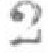2
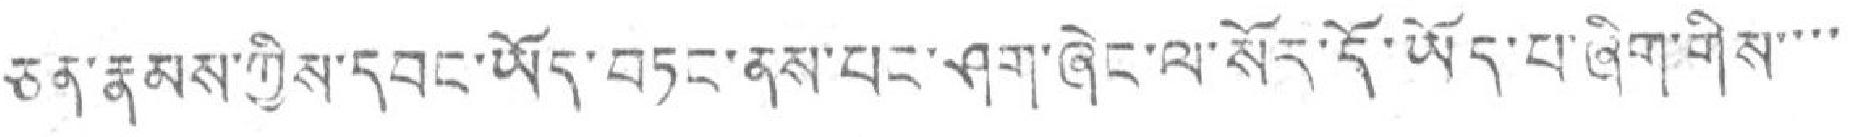ཅན་རྣམས་ཀྱིས་དབང་ཡོད་བཏང་ནས་པར་ཤག་ཞེང་ལ་སོར་དོ་ཡོད་པ་ཞིག་གིས་་་་
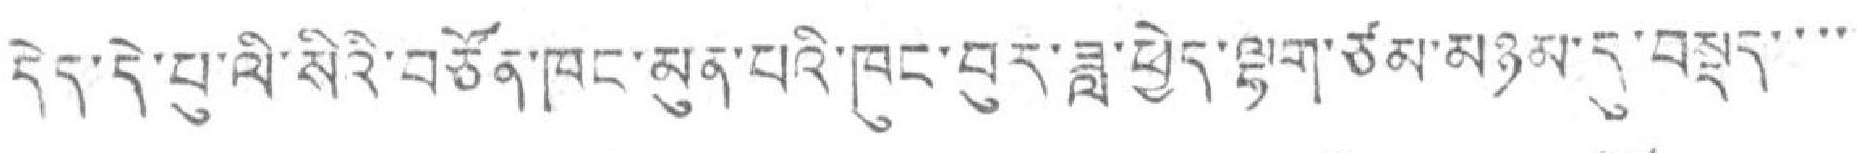དེད་དེ་པ་ལི་སིའི་བཙོན་ཁང་མུན་པའི་ཁུང་བུར་ཟླ་ཕྱེད་ལྷག་ཙམ་མཉམ་དུ་བསྡད་་་་
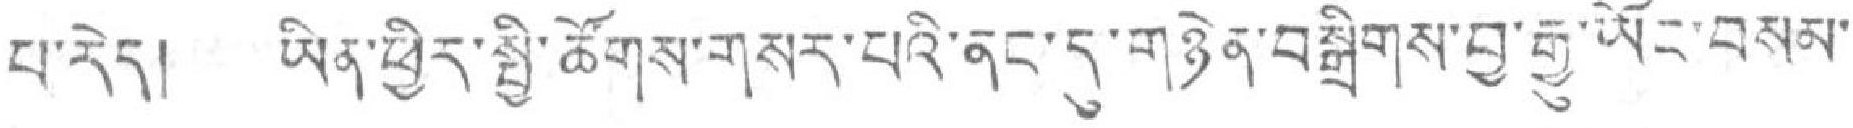པ་རེད། ཡིན་ཕྱིར་སྤྱི་ཚོགས་གསར་པའི་ནང་དུ་གཉེན་བསྒྲིགས་བྱ་རྒྱུ་ཡོང་བསམ་
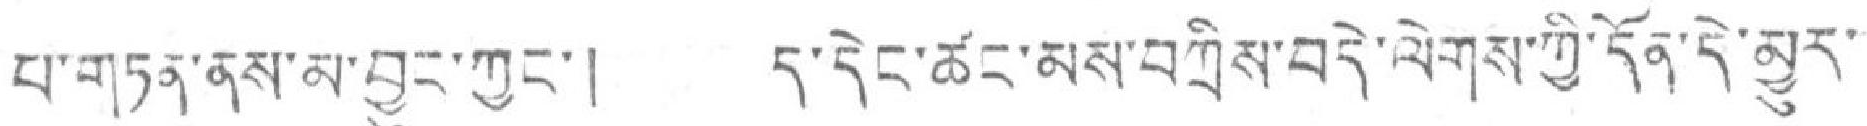པ་གཏན་ནས་མ་བྱུར་ཀྱང་། ད་དེང་ཚང་མས་བཀྲིས་བདེ་ལེགས་ཀྱི་དོན་དེ་མྱུར་
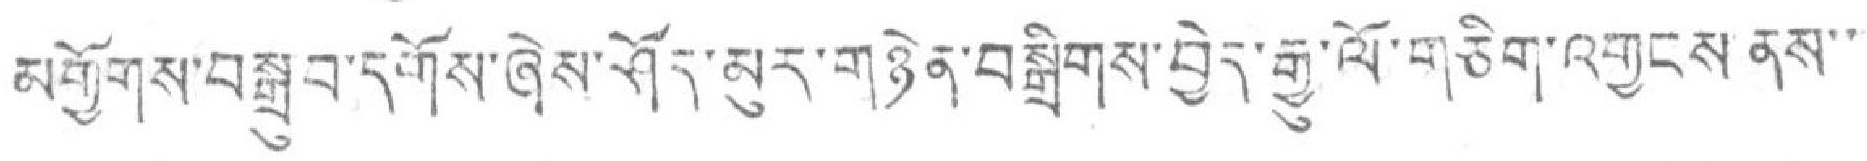མགྱོགས་བསྒྲུབ་དགོས་ཞེས་ཤོད་མུར་གཉེན་བསྒྲིགས་བྱེད་རྒྱུ་ལོ་གཅིག་འགྱངས་ནས་་
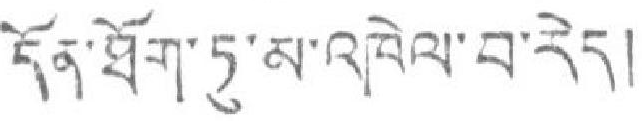དོན་ཐོག་ཏུ་མ་འཁེལ་བ་རེད།
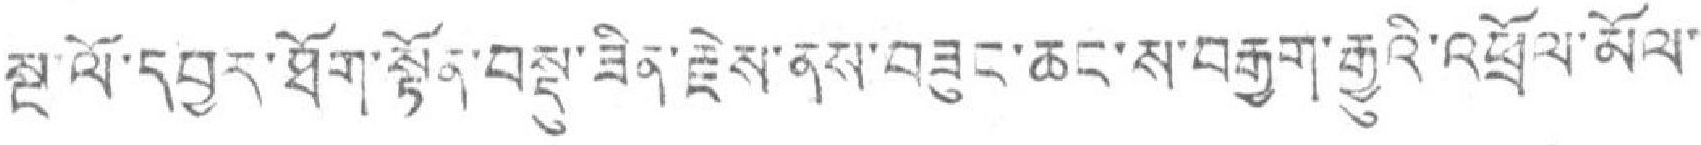སྔ་ལོ་དབྱར་ཐོག་སྟོན་བསྡུ་ཟིན་རྗེས་ནས་བཟུང་ཆང་ས་བརྒྱག་རྒྱུའི་འཕྲོལ་མོལ་
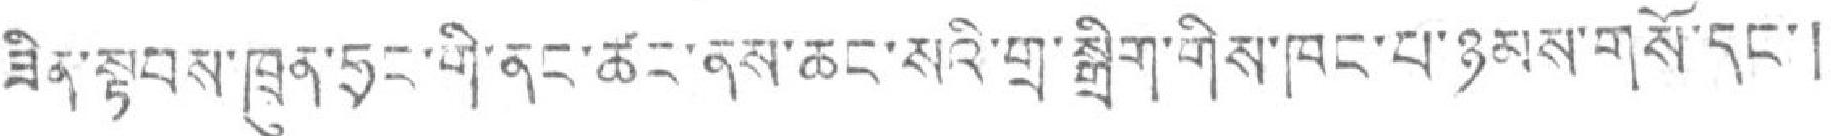ཟིན་སྟབས་ཁྲུན་ཧྲང་གི་ནང་ཚང་ནས་ཆང་སའི་གྲ་སྒྲིག་གིས་ཁང་པ་ཉམས་གསོ་དང་།
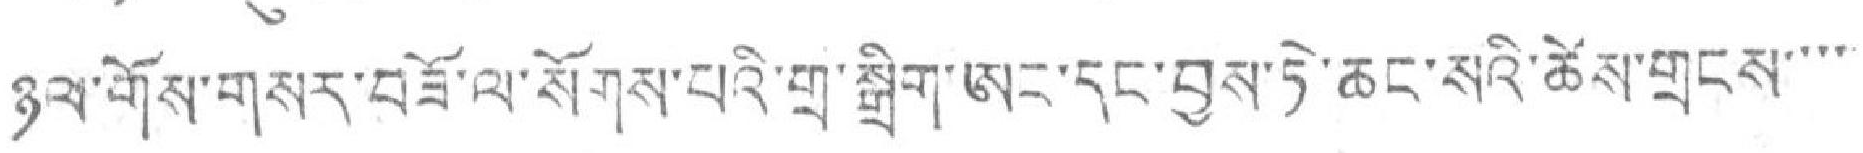ཉལ་གོས་གསར་བཟོ་ལ་སོགས་པའི་གྲ་སྒྲིག་ཨང་དང་བྱས་ཏེ་ཆང་སའི་ཚེས་གྲངས་་་་་
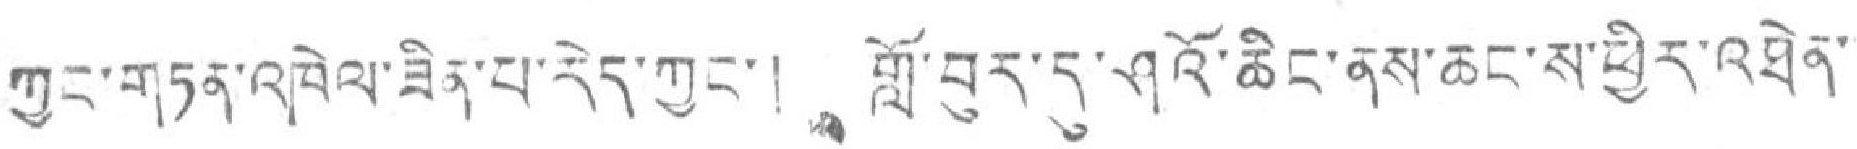ཀྱང་གཏན་འཁེལ་ཟིན་པ་རེད་ཀྱང་། ཀློ་བུར་དུ་ཤའོ་ཆིང་ནས་ཆང་ས་ཕྱིར་འཐེན་
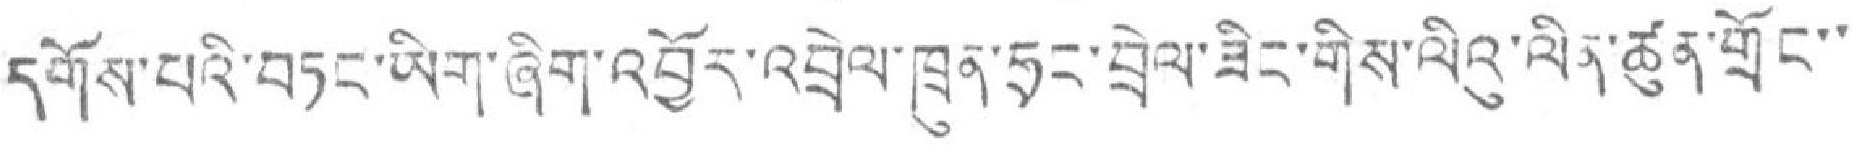དགོས་པའི་བཏང་ཡིག་ཞིག་འབྱོར་འབྲེལ་ཁྲུན་ཧྲང་བྲེལ་ཟིང་གིས་ལིའུ་ལིན་ཚུན་གྲོང་་
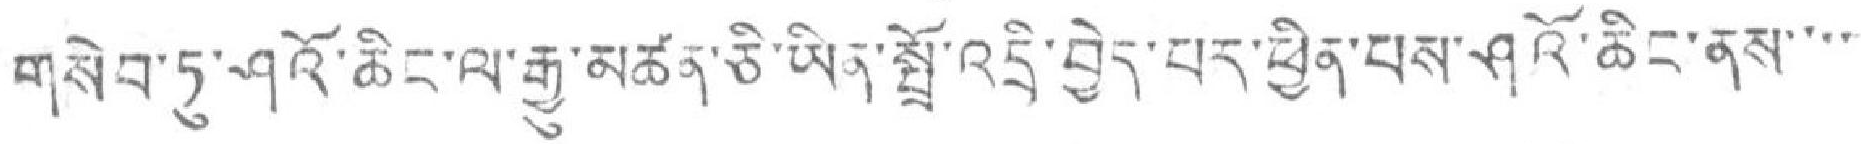གསེབ་ཏུ་ཤའོ་ཆིང་ལ་རྒྱུ་མཚན་ཅི་ཡིན་སྤྲོ་འདྲི་བྱེད་པར་ཕྱིན་པས་ཤའོ་ཆིང་ནས་་་་
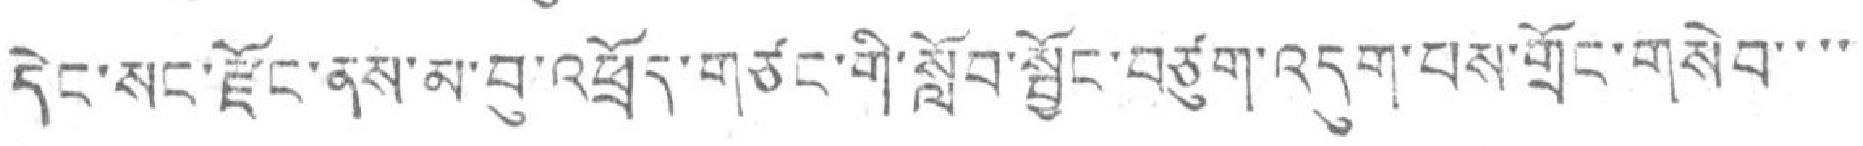དེང་སང་རྫོང་ནས་མ་བུ་འཕྲོད་གཙང་གི་སློབ་སྦྱོང་བཙུག་འདུག་པས་གྲོང་གསེབ་་་་
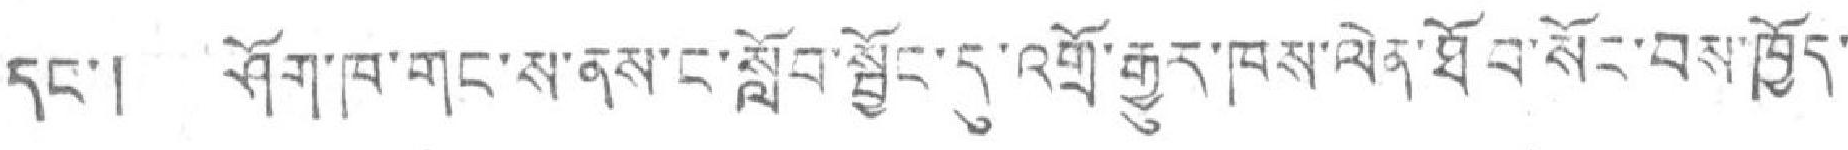དང་། ཤོག་ཁ་གང་ས་ནས་ང་སློབ་སྦྱོང་དུ་འགྲོ་རྒྱུར་ཁས་ལེན་ཐོབ་སོང་བྱས་ཁྱོད་
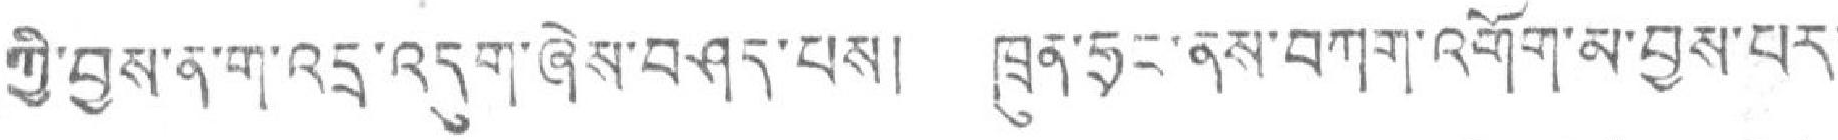ཀྱི་བྱས་ན་ག་འདྲ་འདུག་ཞེས་བཤད་པས། ཁྲུན་ཧྲང་ནས་བཀག་འགོག་མ་བྱས་པར་
